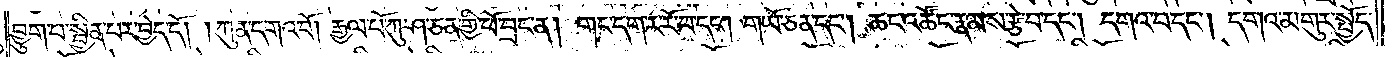བྱུག་པ་སྦྱིན་པར་བྱེད་དོ། །ཀུན་དགའ་བོ། རྒྱལ་པོ་ཀུ་ཤ་ཅན་གྱི་ཕོ་བྲང་ན། གང་དག་ར་རོ་བ་དང༌། གཡོ་ཅན་དང༌། ཆང་འཚོང་རྣམས་རྩེ་བ་དང༌། དགའ་བ་དང༌། དགའ་མགུར་སྤྱོད་
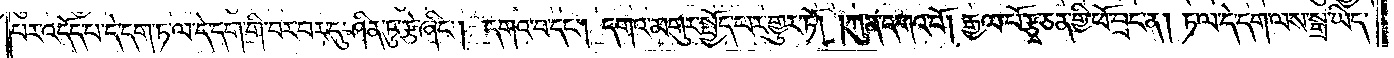པར་འདོད་པ་དེ་དག་ཏ་ལ་དེ་དག་གི་བར་བར་དུ་ཤིན་ཏུ་རྩེ་ཞིང༌། དགའ་བ་དང༌། དགའ་མགུར་སྤྱོད་པར་གྱུར་ཏོ། །ཀུན་དགའ་བོ། རྒྱལ་པོ་རྩྭ་ཅན་གྱི་ཕོ་བྲང་ན། ཏ་ལ་དེ་དག་ལས་སྒྲ་ཡིད་
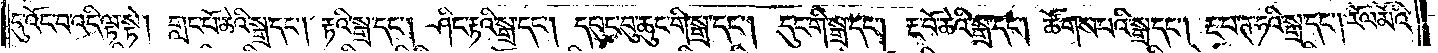དུ་འོང་བ་འདི་ལྟ་སྟེ། གླང་པོ་ཆེའི་སྒྲ་དང༌། རྟའི་སྒྲ་དང༌། ཤིང་རྟའི་སྒྲ་དང༌། དཔུང་བུ་ཆུང་གི་སྒྲ་དང༌། དུང་གི་སྒྲ་དང༌། རྔ་བོ་ཆེའི་སྒྲ་དང༌། ཚོགས་པའི་སྒྲ་དང༌། རྔ་པ་ཊ་ཧའི་སྒྲ་དང༌། རོལ་མོའི་
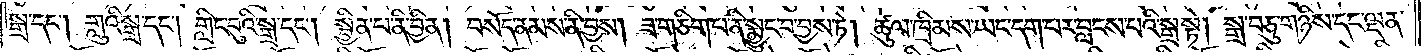སྒྲ་དང༌། གླུའི་སྒྲ་དང༌། གླིང་བུའི་སྒྲ་དང༌། སྦྱིན་པ་ནི་བྱིན། བསོད་ནམས་ནི་བྱས། ཟ་གཅིག་པ་ནི་སྨྱུང་བ་བྱས་ཏེ། ཚུལ་ཁྲིམས་ཡང་དག་པར་བླངས་པའི་སྒྲ་སྟེ། སྒྲ་བཅུ་གཉིས་དང་ལྡན་
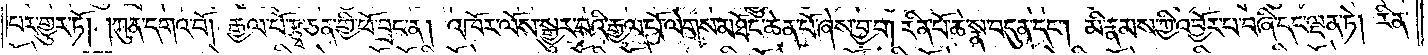པར་གྱུར་ཏོ། །ཀུན་དགའ་བོ། རྒྱལ་པོ་རྩྭ་ཅན་གྱི་ཕོ་བྲང་ན། འཁོར་ལོས་སྒྱུར་བའི་རྒྱལ་པོ་ལེགས་མཐོང་ཆེན་པོ་ཞེས་བྱ་བ། རིན་པོ་ཆེ་སྣ་བདུན་དང༌། མི་རྣམས་ཀྱི་འབྱོར་པ་བཞི་དང་ལྡན་ཏེ། རིན་
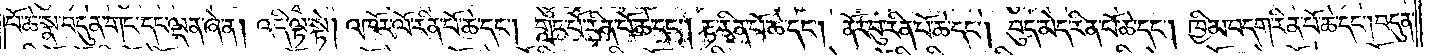པོ་ཆེ་སྣ་བདུན་གང་དང་ལྡན་ཞེ་ན། འདི་ལྟ་སྟེ། འཁོར་ལོ་རིན་པོ་ཆེ་དང༌། གླང་པོ་རིན་པོ་ཆེ་དང༌། རྟ་རིན་པོ་ཆེ་དང༌། ནོར་བུ་རིན་པོ་ཆེ་དང༌། བུད་མེད་རིན་པོ་ཆེ་དང༌། ཁྱིམ་བདག་རིན་པོ་ཆེ་དང༌། བདུན་
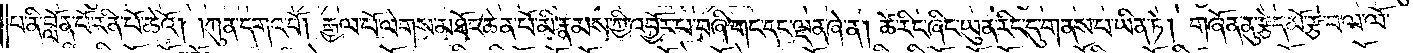པ་ནི་བློན་པོ་རིན་པོ་ཆེའོ། །ཀུན་དགའ་བོ། རྒྱལ་པོ་ལེགས་མཐོང་ཆེན་པོ་མི་རྣམས་ཀྱི་འབྱོར་པ་བཞི་གང་དང་ལྡན་ཞེ་ན། ཚེ་རིང་ཞིང་ཡུན་རིང་དུ་གནས་པ་ཡིན་ཏེ། གཞོན་ནུ་རྩེད་མོ་རྩེ་བ་ལ་ལོ་
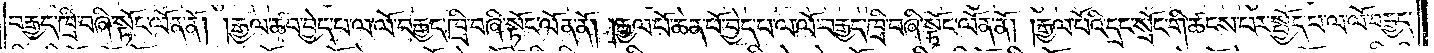བརྒྱད་ཁྲི་བཞི་སྟོང་ལོན་ནོ། །རྒྱལ་ཚབ་བྱེད་པ་ལ་ལོ་བརྒྱད་ཁྲི་བཞི་སྟོང་ལོན་ནོ། །རྒྱལ་པོ་ཆེན་པོ་བྱེད་པ་ལ་ལོ་བརྒྱད་ཁྲི་བཞི་སྟོང་ལོན་ནོ། །རྒྱལ་པོའི་དྲང་སྲོང་གི་ཚངས་པར་སྤྱོད་པ་ལ་ལོ་བརྒྱད་
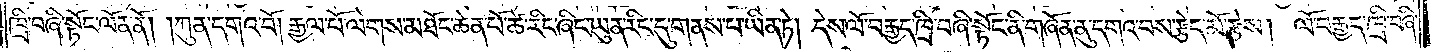ཁྲི་བཞི་སྟོང་ལོན་ནོ། །ཀུན་དགའ་བོ། རྒྱལ་པོ་ལེགས་མཐོང་ཆེན་པོ་ཚེ་རིང་ཞིང་ཡུན་རིང་དུ་གནས་པ་ཡིན་ཏེ། དེས་ལོ་བརྒྱད་ཁྲི་བཞི་སྟོང་ནི་གཞོན་ནུ་དགའ་བས་རྩེད་མོ་རྩེས། ལོ་བརྒྱད་ཁྲི་བཞི་
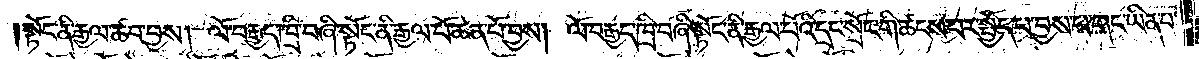སྟོང་ནི་རྒྱལ་ཚབ་བྱས། ལོ་བརྒྱད་ཁྲི་བཞི་སྟོང་ནི་རྒྱལ་པོ་ཆེན་པོ་བྱས། ལོ་བརྒྱད་ཁྲི་བཞི་སྟོང་ནི་རྒྱལ་པོའི་དྲང་སྲོང་གི་ཚངས་པར་སྤྱོད་པ་བྱས་པ་གང་ཡིན་པ་
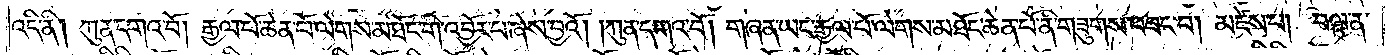འདི་ནི། ཀུན་དགའ་བོ། རྒྱལ་པོ་ཆེན་པོ་ལེགས་མཐོང་གི་འབྱོར་པ་ཞེས་བྱའོ། །ཀུན་དགའ་བོ། གཞན་ཡང་རྒྱལ་པོ་ལེགས་མཐོང་ཆེན་པོ་ནི་གཟུགས་བཟང་བ། མཛེས་པ། བལྟ་ན་
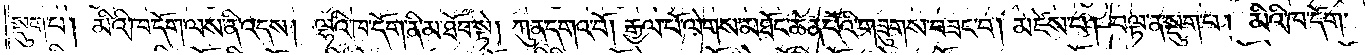སྡུག་པ། མིའི་ཁ་དོག་ལས་ནི་འདས། ལྷའི་ཁ་དོག་ནི་མ་ཐོབ་སྟེ། ཀུན་དགའ་བོ། རྒྱལ་པོ་ལེགས་མཐོང་ཆེན་པོའི་གཟུགས་བཟང་བ། མཛེས་པ། བལྟ་ན་སྡུག་པ། མིའི་ཁ་དོག་
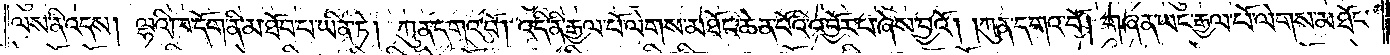ལས་ནི་འདས། ལྷའི་ཁ་དོག་ནི་མ་ཐོབ་པ་ཡིན་ཏེ། ཀུན་དགའ་བོ། འདི་ནི་རྒྱལ་པོ་ལེགས་མཐོང་ཆེན་པོའི་འབྱོར་པ་ཞེས་བྱའོ། །ཀུན་དགའ་བོ། གཞན་ཡང་རྒྱལ་པོ་ལེགས་མཐོང་
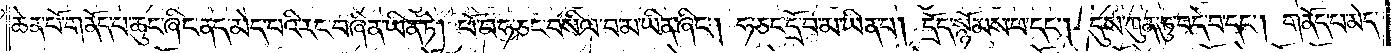ཆེན་པོ་གནོད་པ་ཆུང་ཞིང་ནད་མེད་པའི་རང་བཞིན་ཡིན་ཏེ། ཕོ་བ་ཧ་ཅང་བསིལ་བ་མ་ཡིན་ཞིང༌། ཧ་ཅང་དྲོ་བ་མ་ཡིན་པ། དྲོད་སྙོམས་པ་དང༌། དུས་ཀུན་ཏུ་བདེ་བ་དང༌། གནོད་པ་མེད་
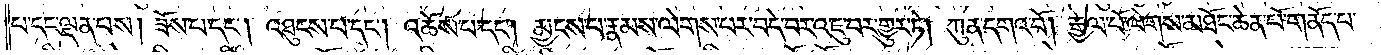པ་དང་ལྡན་པས། ཟོས་པ་དང༌། འཐུངས་པ་དང༌། འཆོས་པ་དང༌། མྱངས་པ་རྣམས་ལེགས་པར་བདེ་བར་འཇུ་བར་གྱུར་ཏེ། ཀུན་དགའ་བོ། རྒྱལ་པོ་ལེགས་མཐོང་ཆེན་པོ་གནོད་པ་
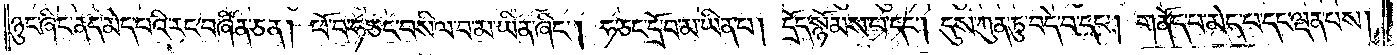ཉུང་ཞིང་ནད་མེད་པའི་རང་བཞིན་ཅན། ཕོ་བ་ཧ་ཅང་བསིལ་བ་མ་ཡིན་ཞིང༌། ཧ་ཅང་དྲོ་བ་མ་ཡིན་པ། དྲོད་སྙོམས་པ་དང༌། དུས་ཀུན་ཏུ་བདེ་བ་དང༌། གནོད་པ་མེད་པ་དང་ལྡན་པས།
